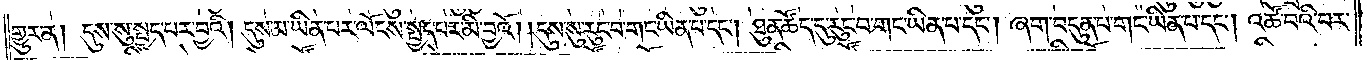གྱུར་ན། དུས་སུ་སྤྱད་པར་བྱའི། །དུས་མ་ཡིན་པར་ལོངས་སྤྱད་པར་མི་བྱའོ། །དུས་སུ་རུང་བ་གང་ཡིན་པ་དང༌། ཐུན་ཚོད་དུ་རུང་བ་གང་ཡིན་པ་དང༌། ཞག་བདུན་པ་གང་ཡིན་པ་དང༌། འཚོ་བའི་བར་
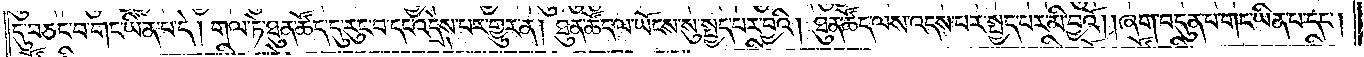དུ་བཅང་བ་གང་ཡིན་པ་དེ། གལ་ཏེ་ཐུན་ཚོད་དུ་རུང་བ་དང་འདྲེས་པར་གྱུར་ན། ཐུན་ཚོད་ལ་ཡོངས་སུ་སྤྱད་པར་བྱའི། ཐུན་ཚོད་ལས་འདས་པར་སྤྱད་པར་མི་བྱའོ། །ཞག་བདུན་པ་གང་ཡིན་པ་དང༌།
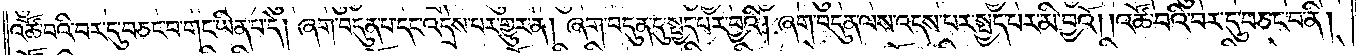འཚོ་བའི་བར་དུ་བཅང་བ་གང་ཡིན་པ་དེ། ཞག་བདུན་པ་དང་འདྲེས་པར་གྱུར་ན། ཞག་བདུན་དུ་སྤྱད་པར་བྱའི། ཞག་བདུན་ལས་འདས་པར་སྤྱད་པར་མི་བྱའོ། །འཚོ་བའི་བར་དུ་བཅང་བ་ནི།
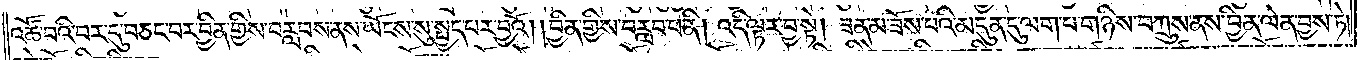འཚོ་བའི་བར་དུ་བཅང་བར་བྱིན་གྱིས་བརླབས་ནས་ཡོངས་སུ་སྤྱད་པར་བྱའོ། །བྱིན་གྱིས་བརླབ་པ་ནི། འདི་ལྟར་བྱ་སྟེ། ཟན་མ་ཟོས་པའི་མདུན་དུ་ལག་པ་གཉིས་བཀྲུས་ནས་བྱིན་ལེན་བྱས་ཏེ།
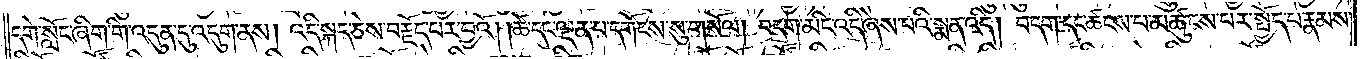དགེ་སློང་ཞིག་གི་འདུན་དུ་འདུག་ནས། འདི་སྐད་ཅེས་བརྗོད་པར་བྱའོ། །ཚེ་དང་ལྡན་པ་དགོངས་སུ་གསོལ། བདག་མིང་འདི་ཞེས་པའི་སྨན་འདི། བདག་དང་ཚངས་པ་མཚུངས་པར་སྤྱོད་པ་རྣམས་
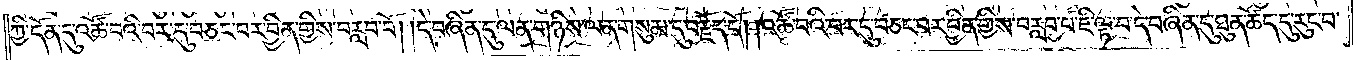ཀྱི་དོན་དུ་འཚོ་བའི་བར་དུ་བཅང་བར་བྱིན་གྱིས་བརླབ་པོ། །དེ་བཞིན་དུ་ལན་གཉིས་ལན་གསུམ་དུ་བརྗོད་དོ། །འཚོ་བའི་བར་དུ་བཅང་བར་བྱིན་གྱིས་བརླབ་པ་ཇི་ལྟ་བ་དེ་བཞིན་དུ་ཐུན་ཚོད་དུ་རུང་བ་
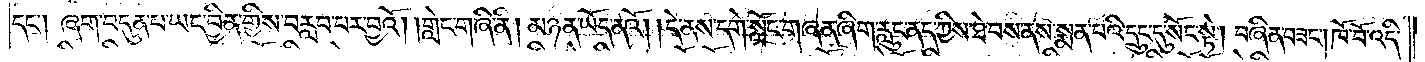དང༌། ཞག་བདུན་པ་ཡང་བྱིན་གྱིས་བརླབ་པར་བྱའོ། །གླེང་གཞི་ནི། མཉན་ཡོད་ནའོ། །དེ་ནས་དགེ་སློང་གཞན་ཞིག་རླུང་ནད་ཀྱིས་ཐེབས་ནས་སྨན་པའི་དྲུང་དུ་སོང་སྟེ། བཞིན་བཟང༌། ཁོ་བོ་འདི་
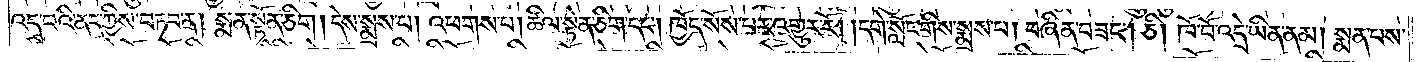འདྲ་བའི་ནད་ཀྱིས་བཏབ་ན། སྨན་སྟོན་ཅིག །དེས་སྨྲས་པ། འཕགས་པ། ཚིལ་སྟེན་ཅིག་དང༌། ཁྱོད་སོས་པར་འགྱུར་རོ། །དགེ་སློང་གིས་སྨྲས་པ། བཞིན་བཟང༌། ཅི། ཁོ་བོ་འདྲེ་ཡིན་ནམ། སྨན་པས་
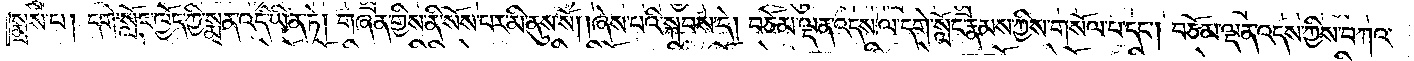སྨྲས་པ། དགེ་སློང་ཁྱོད་ཀྱི་སྨན་འདི་ཡིན་ཏེ། གཞན་གྱིས་ནི་སོས་པར་མི་ནུས་སོ། །ཞེས་པའི་སྐབས་དེ། བཅོམ་ལྡན་འདས་ལ་དགེ་སློང་རྣམས་ཀྱིས་གསོལ་པ་དང༌། བཅོམ་ལྡན་འདས་ཀྱིས་བཀའ་
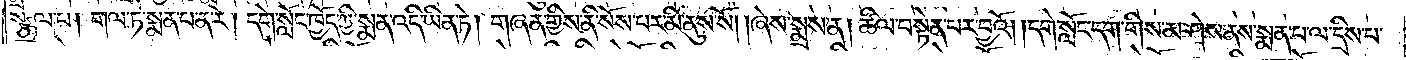སྩལ་པ། གལ་ཏེ་སྨན་པ་ན་རེ། དགེ་སློང་ཁྱོད་ཀྱི་སྨན་འདི་ཡིན་ཏེ། གཞན་གྱིས་ནི་སོས་པར་མི་ནུས་སོ། །ཞེས་སྨྲས་ན། ཚིལ་བསྟེན་པར་བྱའོ། །དགེ་སློང་དག་གིས་མ་ཤེས་ནས་སྨན་པ་ལ་དྲིས་པ་
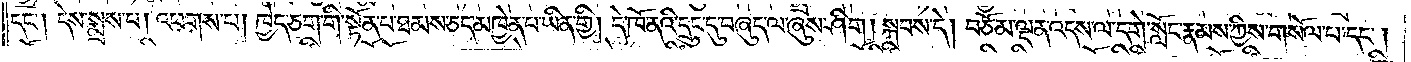དང༌། དེས་སྨྲས་པ། འཕགས་པ། ཁྱེད་ཅག་གི་སྟོན་པ་ཐམས་ཅད་མཁྱེན་པ་ཡིན་གྱི། དེ་ཁོ་ནའི་དྲུང་དུ་བཞུད་ལ་ཞུས་ཤིག །སྐབས་དེ། བཅོམ་ལྡན་འདས་ལ་དགེ་སློང་རྣམས་ཀྱིས་གསོལ་པ་དང༌།
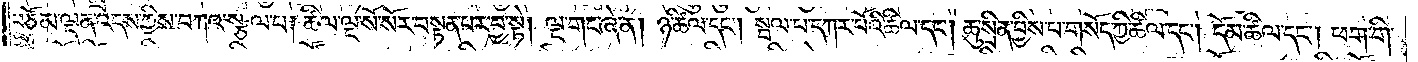བཅོམ་ལྡན་འདས་ཀྱིས་བཀའ་སྩལ་པ། ཚིལ་ལྔ་སོ་སོར་བསྟན་པར་བྱ་སྟེ། ལྔ་གང་ཞེ་ན། ཉ་ཚིལ་དང༌། སྦལ་པ་དཀར་པོའི་ཚིལ་དང༌། ཆུ་སྲིན་བྱིས་པ་གསོད་ཀྱི་ཚིལ་དང༌། དོམ་ཚིལ་དང༌། ཕག་གི་
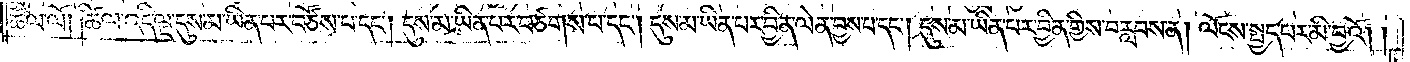ཚིལ་ལོ། །ཚིལ་འདི་ལྔ་དུས་མ་ཡིན་པར་བཙོས་པ་དང༌། དུས་མ་ཡིན་པར་བཙགས་པ་དང༌། དུས་མ་ཡིན་པར་བྱིན་ལེན་བྱས་པ་དང༌། དུས་མ་ཡིན་པར་བྱིན་གྱིས་བརླབས་ན། ལོངས་སྤྱད་པར་མི་བྱའོ། །
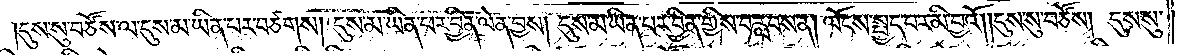དུས་སུ་བཙོས་ལ་དུས་མ་ཡིན་པར་བཙགས། དུས་མ་ཡིན་པར་བྱིན་ལེན་བྱས། དུས་མ་ཡིན་པར་བྱིན་གྱིས་བརླབས་ན། ལོངས་སྤྱད་པར་མི་བྱའོ། །དུས་སུ་བཙོས། དུས་སུ་
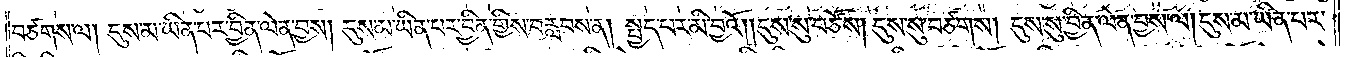བཙགས་ལ། དུས་མ་ཡིན་པར་བྱིན་ལེན་བྱས། དུས་མ་ཡིན་པར་བྱིན་གྱིས་བརླབས་ན། སྤྱད་པར་མི་བྱའོ། །དུས་སུ་བཙོས། དུས་སུ་བཙགས། དུས་སུ་བྱིན་ལེན་བྱས་ལ། དུས་མ་ཡིན་པར་
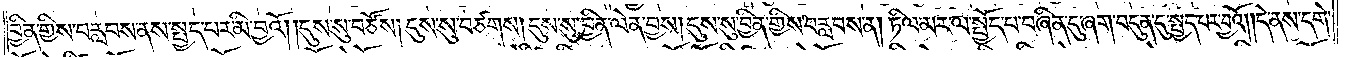བྱིན་གྱིས་བརླབས་ནས་སྤྱད་པར་མི་བྱའོ། །དུས་སུ་བཙོས། དུས་སུ་བཙགས། དུས་སུ་བྱིན་ལེན་བྱས། དུས་སུ་བྱིན་གྱིས་བརླབས་ན། ཏིལ་མར་ལ་སྤྱོད་པ་བཞིན་དུ་ཞག་བདུན་དུ་སྤྱད་པར་བྱའོ། །དེ་ནས་དགེ་
